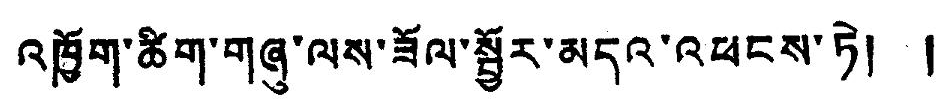འཁྱོག་ཚིག་གཞུ་ལས་ཟོལ་སྦྱོར་མདའ་འཕངས་ཏེ། །
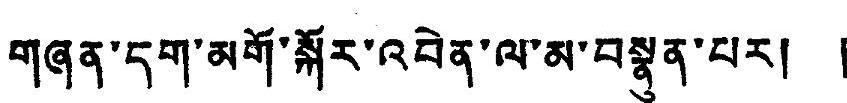གཞན་དག་མགོ་སྐོར་འབེན་ལ་མ་བསྣུན་པར། །
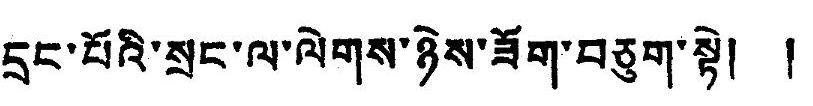དྲང་པོའི་སྲང་ལ་ལེགས་ཉེས་ཟོག་བཅུག་སྟེ། །
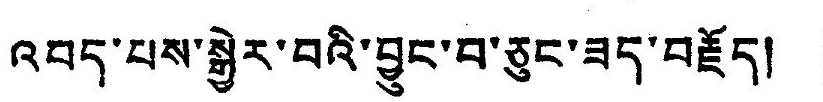འབད་པས་སྒྱེར་བའི་བྱུང་བ་ཅུང་ཟད་བརྗོད། །
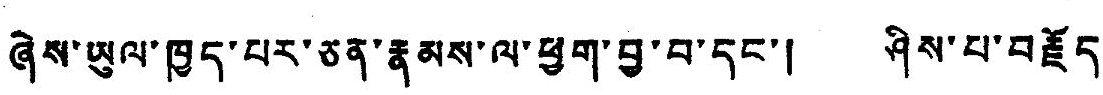ཞེས་ཡུལ་ཁྱད་པར་ཅན་རྣམས་ལ་ཕྱག་བྱ་བ་དང་། ཤིས་པ་བརྗོད་
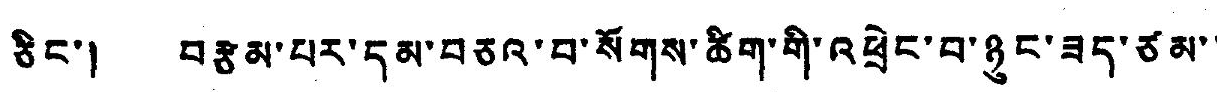ཅིང་། བརྩམ་པར་དམ་བཅའ་བ་སོགས་ཚིག་གི་འཕྲེང་བ་ཉུང་ཟད་ཙམ་་
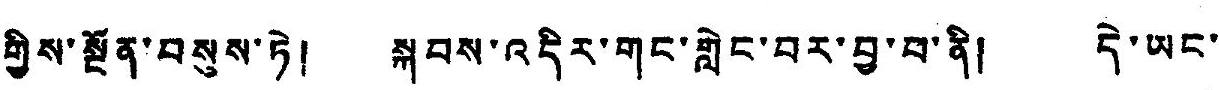གྱིས་སྔོན་བསུས་ཏེ། སྐབས་འདིར་གང་གླེང་བར་བྱ་བ་ནི། དེ་ཡང་
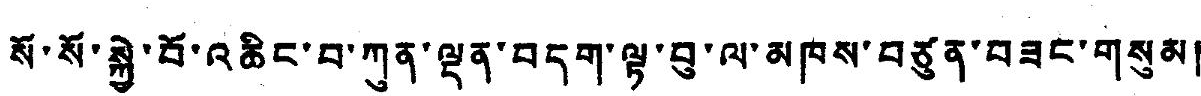སོ་སོ་སྐྱེ་བོ་འཆིང་བ་ཀུན་ལྡན་བདག་ལྟ་བུ་ལ་མཁས་བཙུན་བཟང་གསུམ།
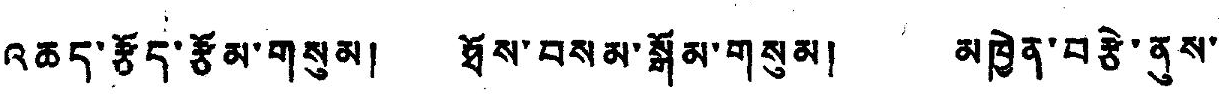འཆད་རྩོད་རྩོམ་གསུམ། ཐོས་བསམ་སྒོམ་གསུམ། མཁྱེན་བརྩེ་ནུས་
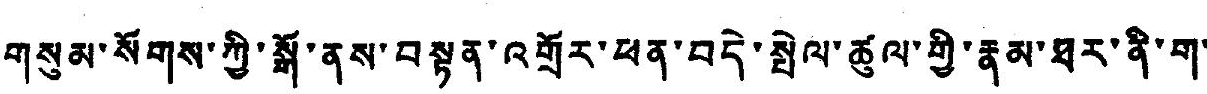གསུམ་སོགས་ཀྱི་སྒོ་ནས་བསྟན་འགྲོར་ཕན་བདེ་སྤེལ་ཚུལ་གྱི་རྣམ་ཐར་ནི་ག་
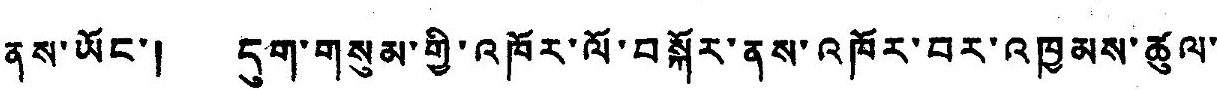ནས་ཡོང་། དུག་གསུམ་གྱི་འཁོར་ལོ་བསྐོར་ནས་འཁོར་བར་འཁྱམས་ཚུལ་
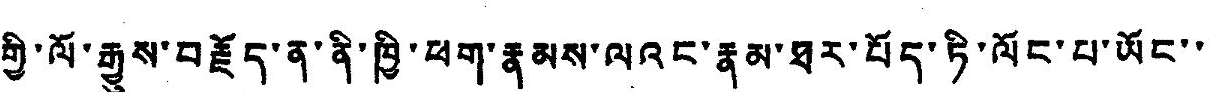གྱི་ལོ་རྒྱུས་བརྗོད་ན་ནི་ཁྱི་ཕག་རྣམས་ལའང་རྣམ་ཐར་པོད་ཏི་ལོང་པ་ཡོང་་
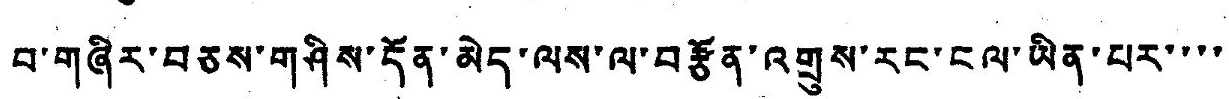བ་གཞིར་བཅས་གཤིས་དོན་མེད་ལས་ལ་བརྩོན་འགྲུས་རང་ངལ་ཡིན་པར་་་་
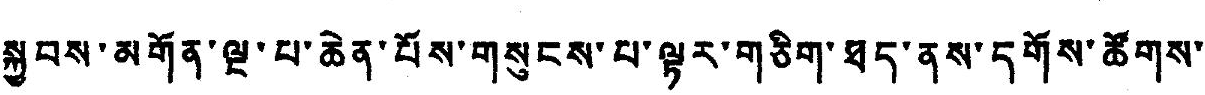སྐྱབས་མགོན་ལྔ་པ་ཆེན་པོས་གསུངས་པ་ལྟར་གཅིག་ཐད་ནས་དགོས་ཚོགས་
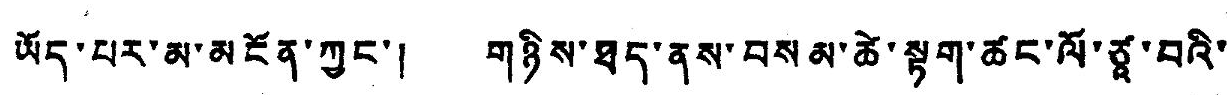ཡོད་པར་མ་མངོན་ཀྱང་། གཉིས་ཐད་ནས་བསམ་ཚེ་སྟག་ཚང་ལོ་ཙཱ་བའི་
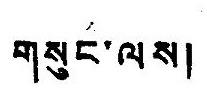གསུང་ལས།
